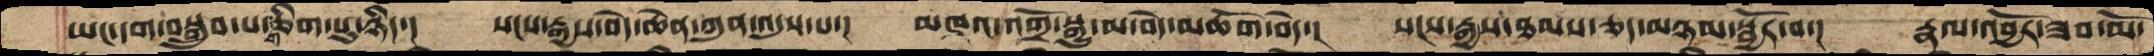ཡང་དག་བསྒྲུབ་པ་གཅིག་པུ་ཉིད་། སངས་རྒྱས་བདེ་ཆེན་ཀུན་འདུས་པ་། མཁའ་འགྲོ་སྒྱུ་མ་བདེ་མཆོག་བདེ་། སངས་རྒྱས་ཐམས་ཅད་མཉམ་སྦྱོར་བ་། རྣལ་འབྱོར་ཟབ་མོ་
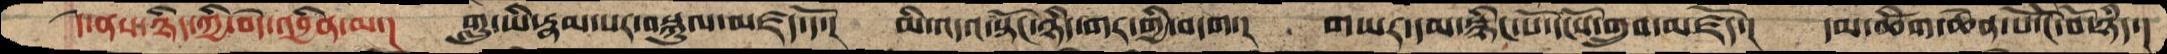དེ་ནས་ཉིདཀྱི་བདེ་འབྱིན་ལ་།  གླུ་ཡི་རྣམ་པར་བསྐུལ་མཛད་དོ་།  མི་འདའ་སྟོང་ཉིད་གར་གྱི་བདག།  གཡར་དམ་སྙིང་པོ་དངོས་གྲུབ་མཛོད་།  དམ་ཚིག་ཆེན་པོ་ངོ་བོ་ཉིད་།
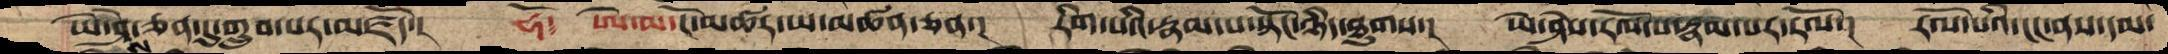ཡེ་ཤེས་ཅན་དུ་གྲུབ་པར་མཛོད་།  ཧོ་  ཨེ་མ་ངོ་མཚར་ཡ་མཚན་ཅན་། རིག་པའི་རྣམ་པ་སྟོང་ཉིད་ཐུགས་། ཡེ་ཤེས་རོལ་པ་རྣམ་པར་རོལ་། རོལ་པའི་ངང་ནས་དམ་
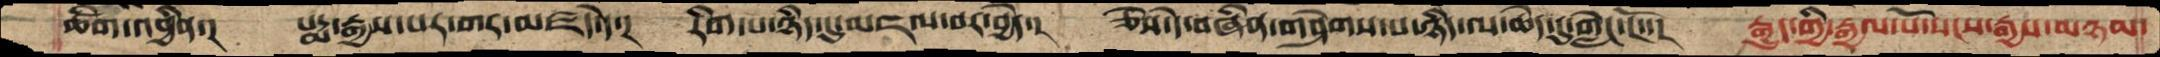ཚིག་འབྱིན་།  པདྨ་རྒྱས་པར་གར་མཛད་དེ་།  རིག་པ་ཉིད་དུ་མཇལ་བར་བྱེད་།  ཅེས་དེ་བཞིན་གཤེགས་པ་ཉིད་ལ་ཆེད་དུ་གླེང་ངོ་་།  རྒྱུད་ཀྱི་རྒྱལ་པོ་སངས་རྒྱས་མཉམ་
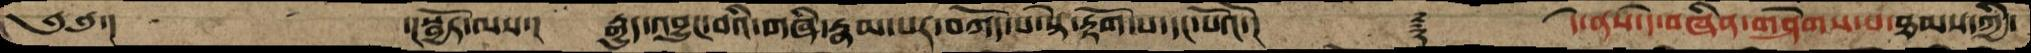༄༅་།     ་།སྦྱོར་ལས་།  རྒྱུད་འབྱུང་བའི་གཞི་རྣམ་པར་བཀོད་པ་སྟེ་རྟོག་པ་དང་པོའོ་།     ࿑     དེ་ནས་དེ་བཞིན་གཤེགས་པ་ཐམས་ཀྱི་
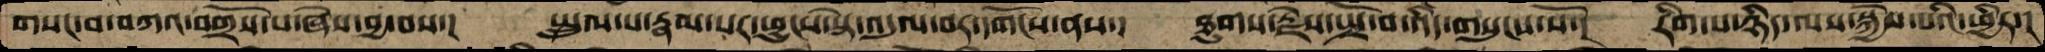གསང་བ་བཀའ་བགྲོས་པ་ཞེས་བྱ་བས་།  སྤྲུལ་པ་རྟམ་པར་ཕྱུངས་སྟེ་འདུལ་བར་དགོངས་ནས་།  ཐུགས་རྗེས་སྤྲོ་བ་འདི་གསུངས་སོ་།  རིག་པ་ཉིད་ལས་སྐྱེས་པའི་ཕྱིར་།
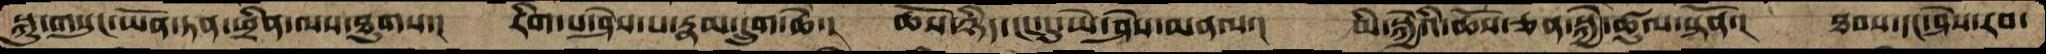སྐུ་གསུང་ཡོན་ཏན་ཕྲིན་ལས་ཐུགས་།  རིག་པ་ཤེས་པ་རྣམ་དྲུག་ཆེ་།  ཆོས་ཉིད་ངང་དུ་ཡེ་ཤེས་མནལ་།  མི་སྐྱེའི་ཆོས་ཅན་སྐྱེ་ཚུལ་སྟོན་།  ཐབས་དང་ཤེས་རབ་
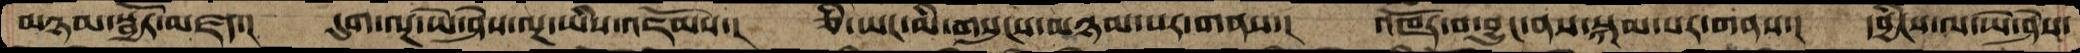མཉམ་སྦྱོར་མཛད་།  དུག་ལྔ་ཡེ་ཤེས་ལྔ་ཡིས་འཇོམས་།  ཅི་ཡང་མི་གསུངས་མཉམ་པར་གནས་།  འཁོར་བ་བྱུང་ནས་སྐམ་པར་གནས་།  དབྱིངས་ལ་ཡེ་ཤེས་
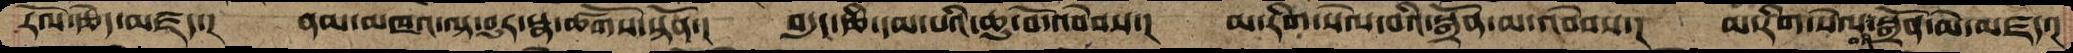རོལ་རྩེད་མཛད་།  ནམ་མཁའ་ལྟ་བུར་སྣ་ཚོགས་སྟོན་།  བདུད་རྩི་དམ་པའི་ཆུ་བོ་འབེབས་།  མ་རིག་སེལ་བའི་སྒྲོན་མ་འབེབས་།  མ་རིག་སེལ་བའི་སྒྲོན་མེ་མཛད་།
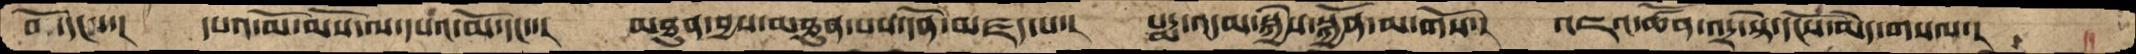བོ་དང་་།  དཔའ་མོ་མོས་ལ་དཔའ་མོ་དང་་།  མཐུན་བྱས་མཐུན་པས་དོན་མཛད་པ་།  པདྨ་འདམ་སྐྱེས་སྐྱོན་མ་གོས་།  འཇའ་ཚོན་འདྲ་སྟེ་དངོས་མེད་གསལ་།
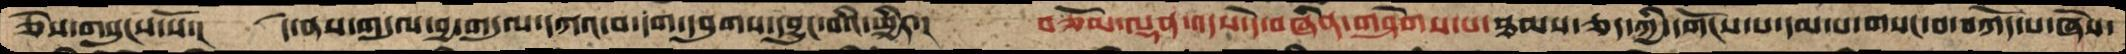ཅེས་གསུངས་སོ་།  དེ་ནས་གདུལ་བྱ་གདུལ་དཀའ་བ་དག་དབུགས་དབྱུང་བའི་ཕྱིར་།  བཅོམ་ལྡན་འདས་དེ་བཞིན་གཤེགས་པ་ཐམས་ཅད་ཀྱི་དགོངས་པ་དམ་པ་གསང་བ་བཀོད་པ་ཞེས་
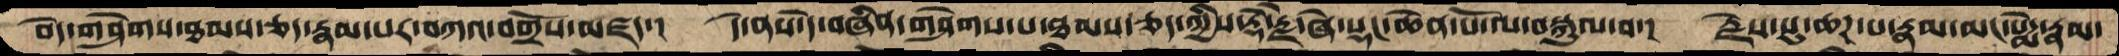བདེ་གཤེགས་ཐམས་ཅད་རྣམ་པར་བཀའ་བགྲོས་མཛད་།  དེ་ནས་དེ་བཞིན་གཤེགས་པ་ཐམས་ཅད་ཀྱིས་རྡོ་རྗེ་ཞེ་སྡང་ཆེན་པོ་ལ་བསྐུལ་བ་།  རྗེས་སུ་ཆཌ་པ་རྣམ་མང་པདྨེ་རྣམ་
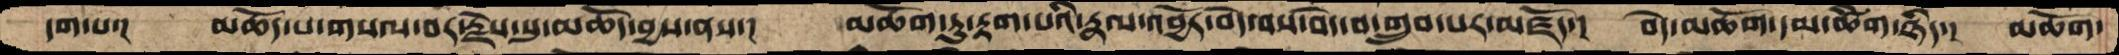དག་པ་།  མཆོད་པ་གསལ་བར་རྗེས་སུ་མཆོད་བྱས་ནས་།  མཆོག་ཏུ་རྟག་པའི་རྣལ་འབྱོར་བདེ་བས་བདེ་བ་གྲུབ་པར་མཛོ་།  བདེ་མཆོག་དམ་ཚིག་ཉིད་།  མཆོག་
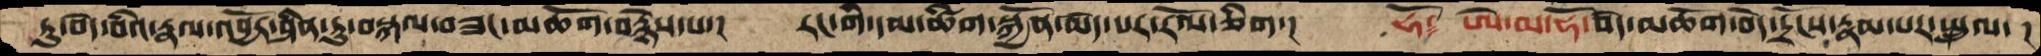ཏུ་བདེ་བའི་རྣལ་འབྱོར་ཤིན་ཏུ་བསྐལ་བཟང་མཆོག་བརྙེས་པ་།  རང་གི་དམ་ཚིག་སྐྱོན་མེད་པར་རོལ་ཅིག་།  ཧོ་  ཨེ་མ་ཧོ་བདེ་མཆོག་བདེ་དྲོངས་རྣ་པར་སྤྲུལ་།
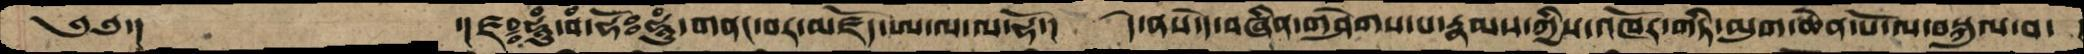༄༅་།   ་།ཛཿཧཱུཾ་བཾ་ཧོཿཧཱུཾ་གནང་བར་མཛོད་ཨ་ལ་ལ་ཧོ་།  དེ་ནས་དེ་བཞིན་གཤེགས་པ་རྣམས་ཀྱིས་འཁོར་གཏི་མུག་ཆེན་པོ་ལ་བསྐུལ་བ་
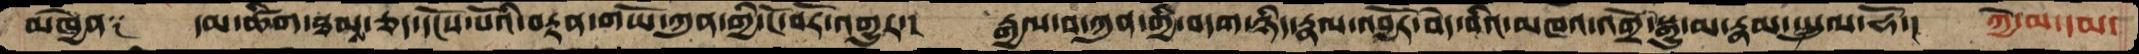མཁྱེན༑  དམ་ཚིག་ཐམས་ཅད་དངོས་པོའི་བརྟན་གཡོ་ཀུན་གྱི་ངོ་བོར་འགྱུར་།  རྒྱལ་བ་ཀུན་གྱི་བདག་ཉིད་རྣལ་འབྱོར་བདེ་བའི་མཁའ་འགྲོ་སྒྱུ་མ་རྣམ་སྤྲུལ་ཧོ་།  ཀྱེ་མ་དམ་
